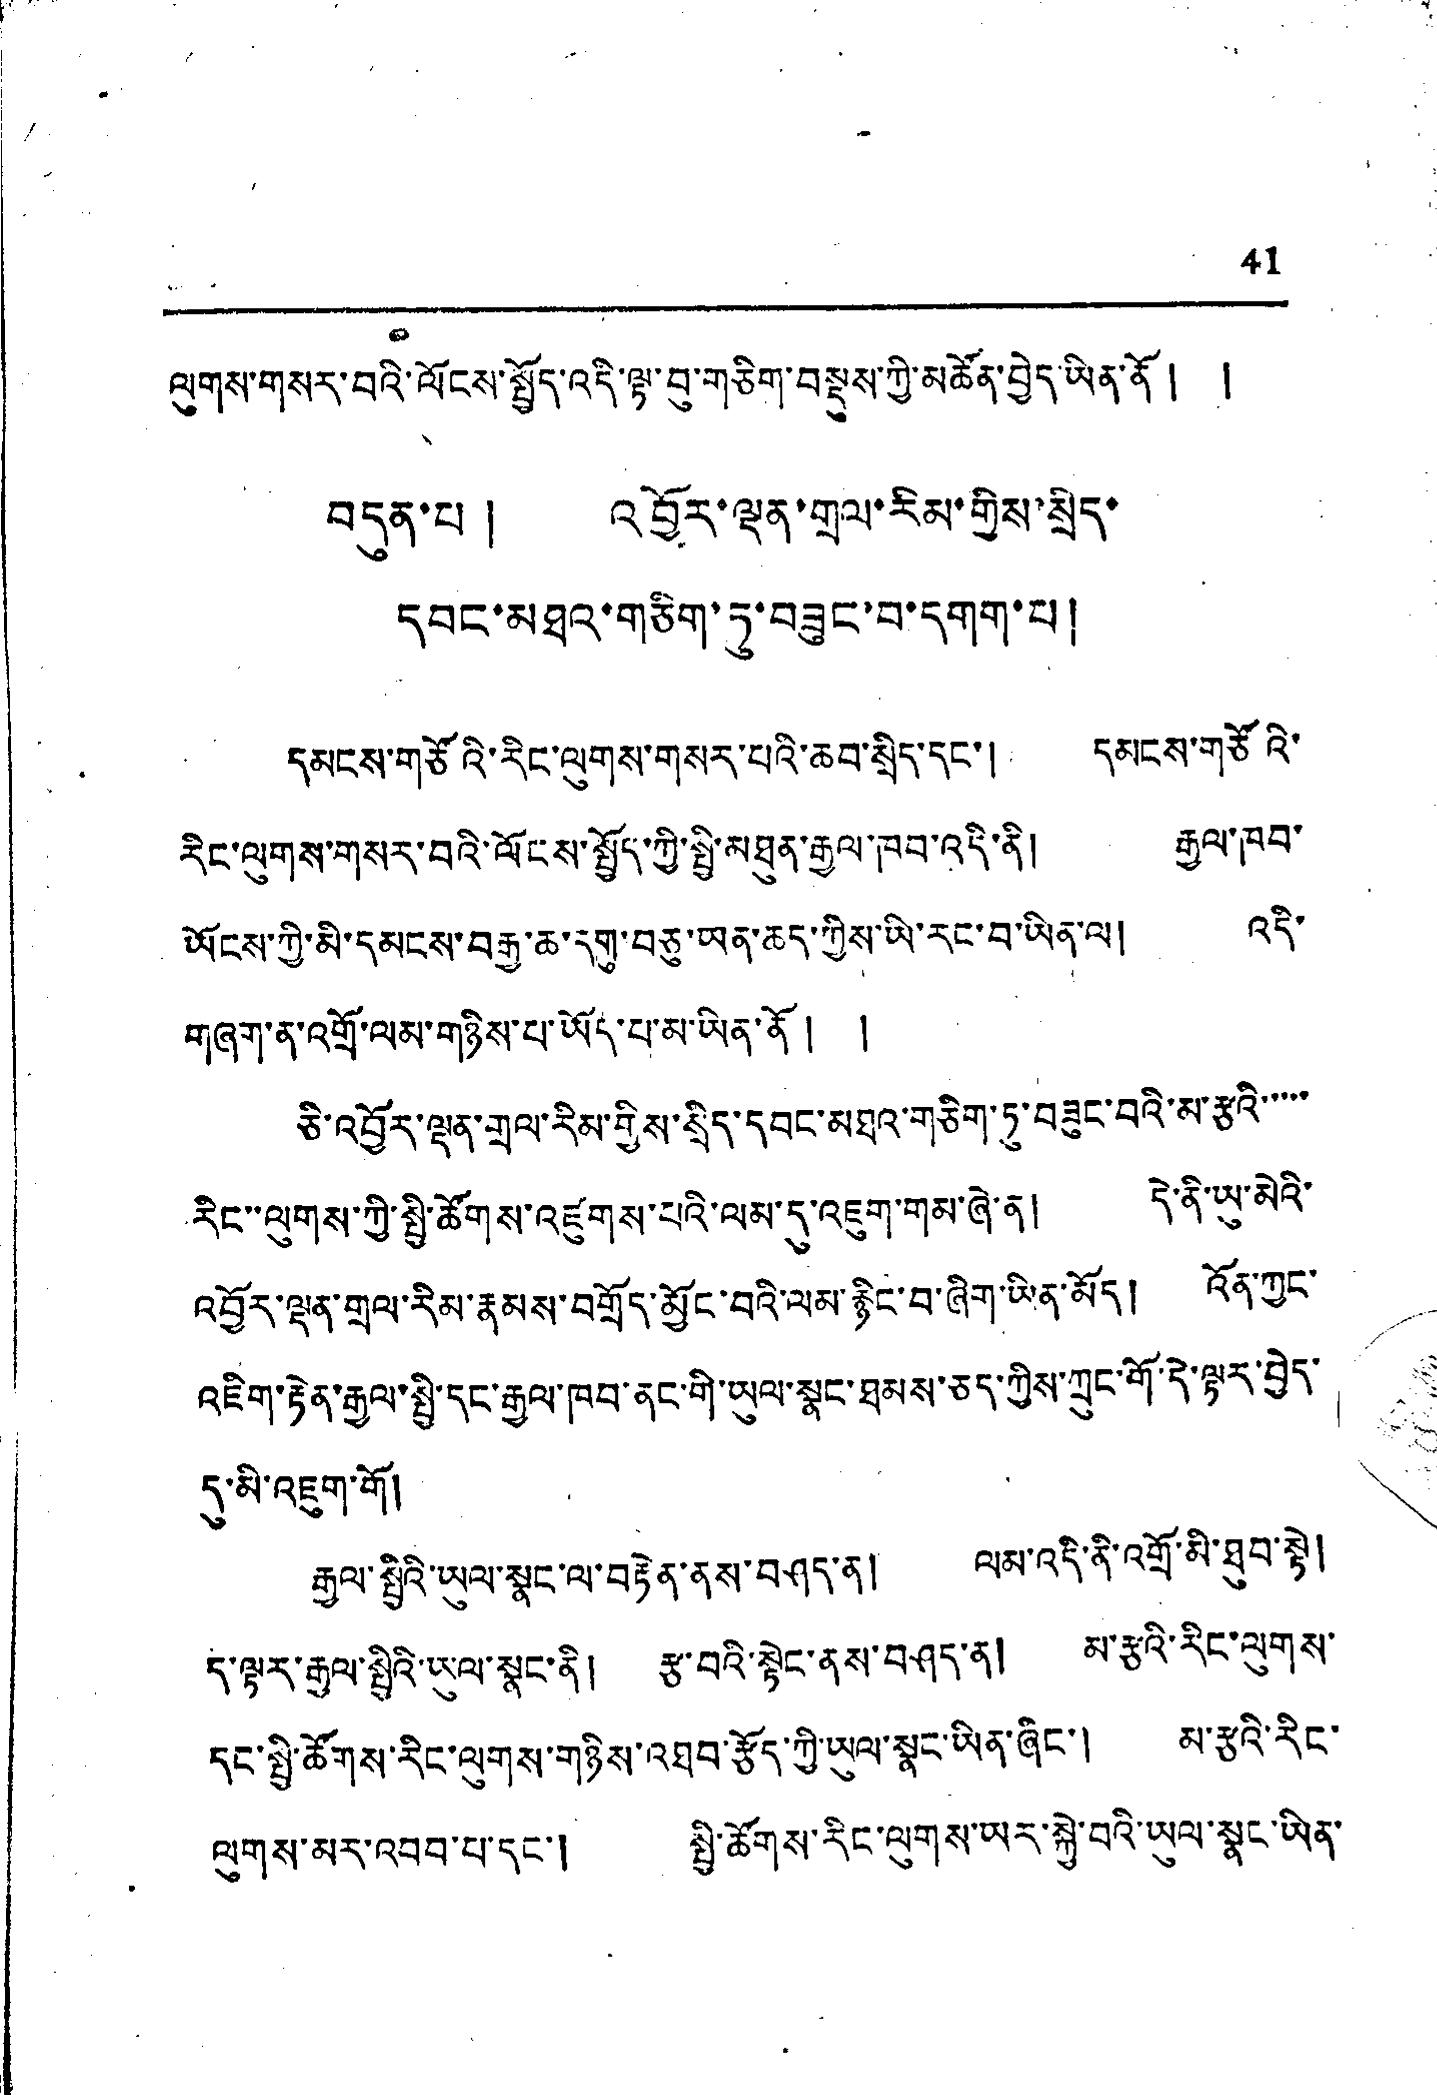41
ལུགས་གསར་བའི་ལོངས་སྤྱོད་འདི་ལྟ་བུ་གཅིག་བསྡུས་ཀྱི་མཚོན་བྱེད་ཡིན་ནོ ། །
བདུན་པ ། འབྱོར་ལྡན་གྲལ་རིམ་གྱིས་སྲིད་
དབང་མཐའ་གཅིག་ཏུ་བཟུང་བ་དགག་པ།
དམངས་གཙོའི་རིང་ལུགས་གསར་པའི་ཆབ་སྲིད་དང་། དམངས་གཙོའི་
རིང་ལུགས་གསར་བའི་ལོངས་སྤྱོད་ཀྱི་སྤྱི་མཐུན་རྒྱལ་ཁབ་འདི་ནི། རྒྱལ་ཁབ་
ཡོངས་ཀྱི་མི་དམངས་བརྒྱ་ཆ་དགུ་བཅུ་ཡན་ཆད་ཀྱིས་ཡི་རང་བ་ཡིན་ལ། འདི་
གཞག་ན་འགྲོ་ལམ་གཉིས་པ་ཡོད་པ་མ་ཡིན་ནོ། །
ཅི་འབྱོར་ལྡན་གྲལ་རིམ་གྱིས་སྲིད་དབང་མཐའ་གཅིག་ཏུ་བཟུང་བའི་མ་རྩའི་་་་་
རིང་་ལུས་ཀྱི་སྤྱི་ཚོགས་འཛུགས་པའི་ལམ་དུ་འཇུག་གམ་ཞེ་ན། དེ་ནི་ཡུ་མེའི་
འབྱོར་ལྡན་གྲལ་རིམ་རྣམས་བགྲོད་མྱོང་བའི་ལམ་རྙིང་བ་ཞིག་ཡིན་མོད། འོན་ཀྱང་
འཇིག་རྟེན་རྒྱལ་སྤྱི་དང་རྒྱལ་ཁབ་ནང་གི་ཡུལ་སྣང་ཐམས་ཅད་ཀྱིས་ཀྲུང་གོ་དེ་ལྟར་བྱེད་
དུ་མི་འཇུག་གོ།
རྒྱལ་སྤྱིའི་ཡུལ་སྣང་ལ་བརྟེན་ནས་བཤད་ན། ལམ་འདི་ནི་འགྲོ་མི་ཐུབ་སྟེ།
ད་ལྟར་རྒྱལ་སྤྱིའི་ཡུལ་སྣང་ནི། རྩ་བའི་སྟེང་ནས་བཤད་ན། མ་རྩའི་རིང་ལུགས་
དང་སྤྱི་ཚོགས་རིང་ལུགས་གཉིས་འཐབ་རྩོད་ཀྱི་ཡུལ་སྣང་ཡིན་ཞིང་། མ་རྩའི་རིང་
ལུགས་མར་འབབ་པ་དང་། སྤྱི་ཚོགས་རིང་ལུགས་ཡར་སྐྱེ་བའི་ཡུལ་སྣང་ཡིན་
